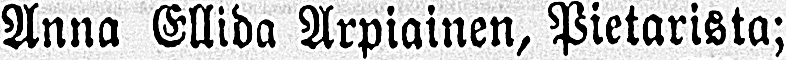Anna Ellida Arpiainen, Pietarista;
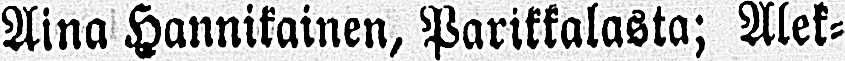Aina Hannikainen, Parikkalasta; Alek-
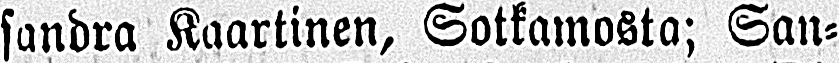sandra Kaartinen, Sotkamosta; San-
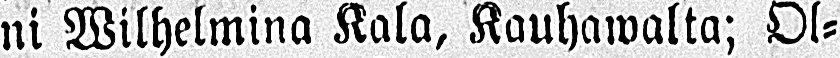ni Wilhelmina Kala, Kauhawalta; Ol-
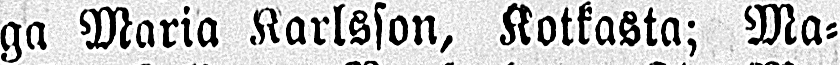ga Maria Karlsson, Kotkasta; Ma-
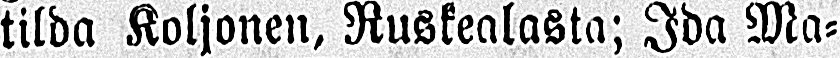tilda Koljonen, Ruskealasta; Ida Ma-
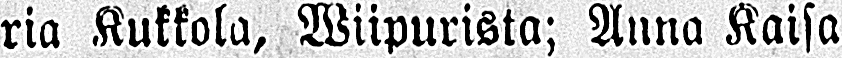ria Kukkola, Wiipurista; Anna Kaisa
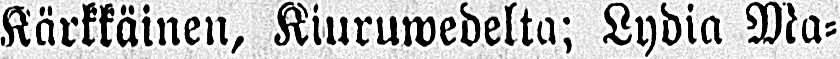Kärkkäinen, Kiuruwedelta; Lydia Ma-
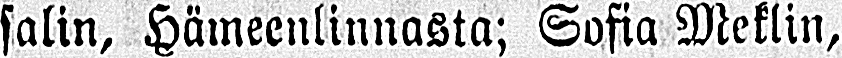salin, Hämeenlinnasta; Sofia Meklin,
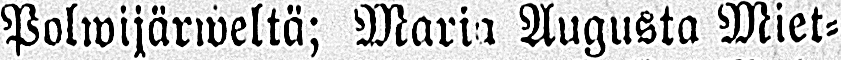Polwijärweltä; Maria Augusta Miet-
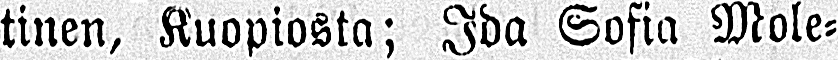tinen, Kuopiosta; Ida Sofia Mole-
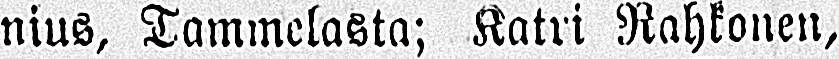nius, Tammelasta; Katri Rahkonen,
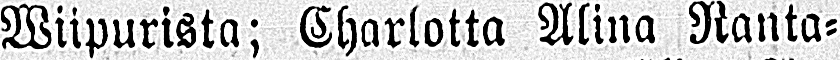Wiipurista; Charlotta Alina Ranta-
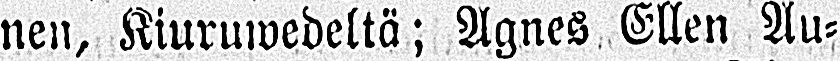nen, Kiuruwedeltä; Agnes Ellen Au-
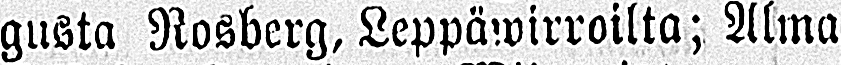gusta Rosberg, Leppäwirroilta; Alma
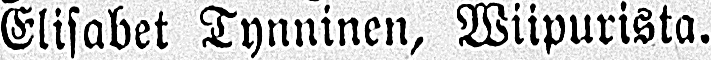Elisabet Tynninen, Wiipurista.
